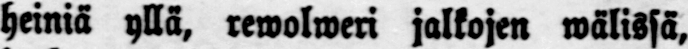heiniä yllä, rewolweri jalkojen wälissä,
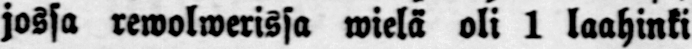jossa rewolwerissa wielä oli 1 laahinki
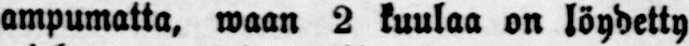ampumatta, waan 2 kuulaa on löydetty
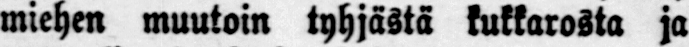miehen muutoin tyhjästä kukkarosta ja
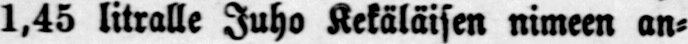1,45 litralle Juho Kekäläisen nimeen an-
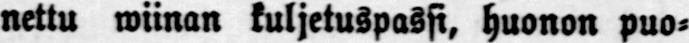nettu wiinan kuljetuspassi, huonon puo-
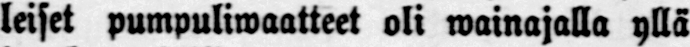leiset pumpuliwaatteet oli wainajalla yllä
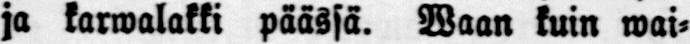ja karwalakki päässä. Waan kuin wai-
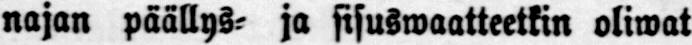najan päällys- ja sisuswaatteetkin oliwat
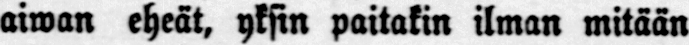aiwan eheät, yksin paitakin ilman mitään
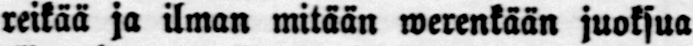reikää ja ilman mitään werenkään juoksua
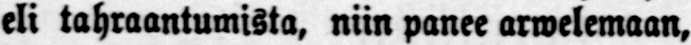eli tahraantumista, niin panee arwelemaan,
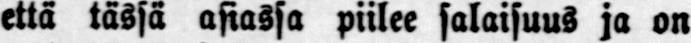että tässä asiassa piilee salaisuus ja on
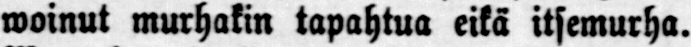woinut murhakin tapahtua eikä itsemurha.
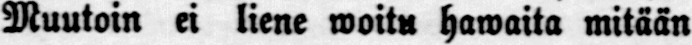Muutoin ei liene woitu hawaita mitään
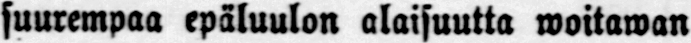suurempaa epäluulon alaisuutta woitawan
